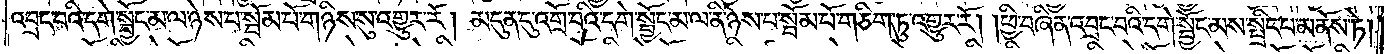འབྲང་བའི་དགེ་སྦྱོང་མ་ལ་ཉེས་པ་སྦོམ་པོ་གཉིས་སུ་འགྱུར་རོ། མདུན་དུ་འགྲོ་བའི་དགེ་སྦྱོང་མ་ལ་ནི་ཉེས་པ་སྦོམ་པོ་གཅིག་ཏུ་འགྱུར་རོ། །ཕྱི་བཞིན་འབྲང་བའི་དགེ་སྦྱོང་མས་སྤྲིང་པ་མནོས་ཏེ།
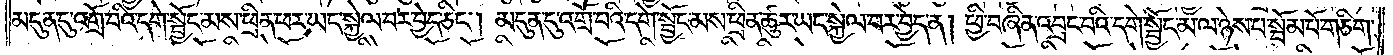མདུན་དུ་འགྲོ་བའི་དགེ་སྦྱོང་མས་ཕྲིན་ཕར་ཡང་སྐྱེལ་བར་བྱེད་ཅིང༌། མདུན་དུ་འགྲོ་བའི་དགེ་སྦྱོང་མས་ཕྲིན་ཚུར་ཡང་སྐྱེལ་བར་བྱེད་ན། ཕྱི་བཞིན་འབྲང་བའི་དགེ་སྦྱོང་མ་ལ་ཉེས་པ་སྦོམ་པོ་གཅིག་
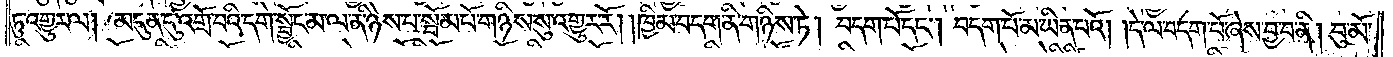ཏུ་འགྱུར་ལ། མདུན་དུ་འགྲོ་བའི་དགེ་སྦྱོང་མ་ལ་ནི་ཉེས་པ་སྦོམ་པོ་གཉིས་སུ་འགྱུར་རོ། །ཁྱིམ་བདག་ནི་གཉིས་ཏེ། བདག་པོ་དང༌། བདག་པོ་མ་ཡིན་པའོ། །དེ་ལ་བདག་པོ་ཞེས་བྱ་བ་ནི། བུ་མོ་
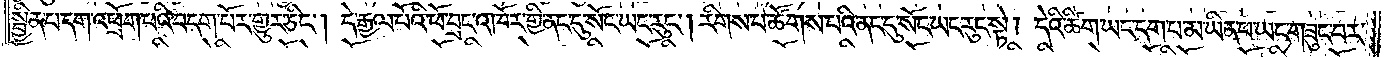སྦྱིན་པ་དག་འཕྲོག་པའི་བདག་པོར་གྱུར་ཅིང༌། དེ་རྒྱལ་པོའི་ཕོ་བྲང་འཁོར་གྱི་ནང་དུ་སོང་ཡང་རུང༌། རིགས་པ་ཚོགས་པའི་ནང་དུ་སོང་ཡང་རུང་སྟེ། དེའི་ཚིག་ཡང་དག་པ་མ་ཡིན་པ་ཡང་གཟུང་བར་
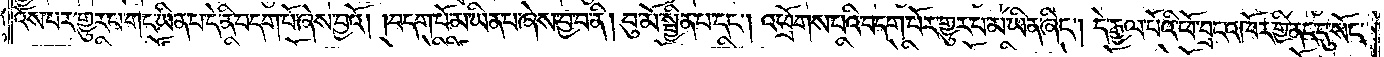འོས་པར་གྱུར་པ་གང་ཡིན་པ་དེ་ནི་བདག་པོ་ཞེས་བྱའོ། །བདག་པོ་མ་ཡིན་པ་ཞེས་བྱ་བ་ནི། བུ་མོ་སྦྱིན་པ་དང༌། འཕྲོགས་པའི་བདག་པོར་གྱུར་པ་མ་ཡིན་ཞིང༌། དེ་རྒྱལ་པོའི་ཕོ་བྲང་འཁོར་གྱི་ནང་དུ་སོང་
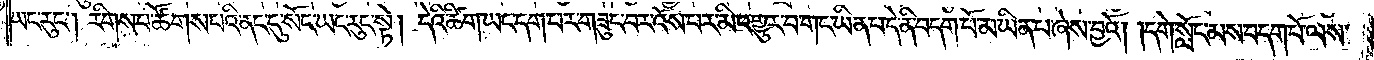ཡང་རུང༌། རིགས་པ་ཚོགས་པའི་ནང་དུ་སོང་ཡང་རུང་སྟེ། དེའི་ཚིག་ཡང་དག་པར་གཟུང་བར་འོས་པར་མི་འགྱུར་བ་གང་ཡིན་པ་དེ་ནི་བདག་པོ་མ་ཡིན་པ་ཞེས་བྱའོ། །དགེ་སློང་མས་བདག་པོ་ལས་
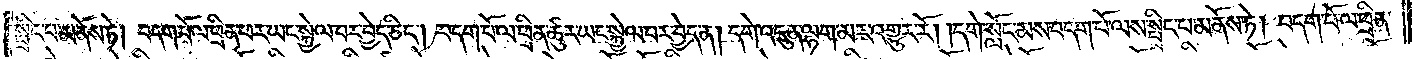སྤྲིང་པ་མནོས་ཏེ། བདག་པོ་ལ་ཕྲིན་ཕར་ཡང་སྐྱེལ་བར་བྱེད་ཅིང༌། བདག་པོ་ལ་ཕྲིན་ཚུར་ཡང་སྐྱེལ་བར་བྱེད་ན། དགེ་འདུན་ལྷག་མར་འགྱུར་རོ། །དགེ་སློང་མས་བདག་པོ་ལས་སྤྲིང་པ་མནོས་ཏེ། བདག་པོ་ལ་ཕྲིན་
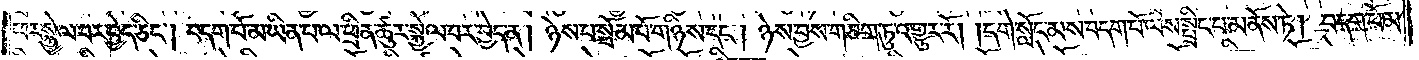ཕར་སྐྱེལ་བར་བྱེད་ཅིང༌། བདག་པོ་མ་ཡིན་པ་ལ་ཕྲིན་ཚུར་སྐྱེལ་བར་བྱེད་ན། ཉེས་པ་སྦོམ་པོ་གཉིས་དང༌། ཉེས་བྱས་གཅིག་ཏུ་འགྱུར་རོ། །དགེ་སློང་མས་བདག་པོ་ལས་སྤྲིང་པ་མནོས་ཏེ། བདག་པོ་མ་
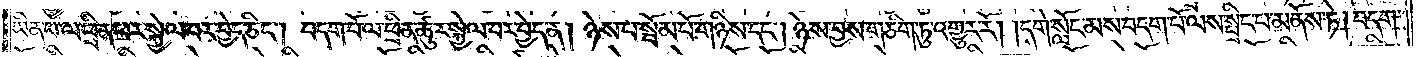ཡིན་པ་ལ་ཕྲིན་ཕར་སྐྱེལ་བར་བྱེད་ཅིང༌། བདག་པོ་ལ་ཕྲིན་ཚུར་སྐྱེལ་བར་བྱེད་ན། ཉེས་པ་སྦོམ་པོ་གཉིས་དང༌། ཉེས་བྱས་གཅིག་ཏུ་འགྱུར་རོ། །དགེ་སློང་མས་བདག་པོ་ལས་སྤྲིང་པ་མནོས་ཏེ། བདག་
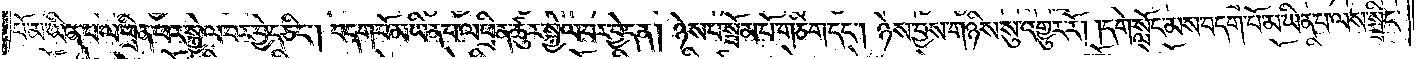པོ་མ་ཡིན་པ་ལ་ཕྲིན་ཕར་སྐྱེལ་བར་བྱེད་ཅིང༌། བདག་པོ་མ་ཡིན་པ་ལ་ཕྲིན་ཚུར་སྐྱེལ་བར་བྱེད་ན། ཉེས་པ་སྦོམ་པོ་གཅིག་དང༌། ཉེས་བྱས་གཉིས་སུ་འགྱུར་རོ། །དགེ་སློང་མས་བདག་པོ་མ་ཡིན་པ་ལས་སྤྲིང་
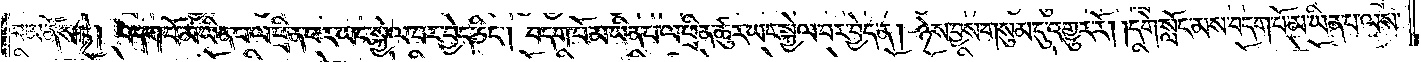པ་མནོས་ཏེ། བདག་པོ་མ་ཡིན་པ་ལ་ཕྲིན་ཕར་ཡང་སྐྱེལ་བར་བྱེད་ཅིང༌། བདག་པོ་མ་ཡིན་པ་ལ་ཕྲིན་ཚུར་ཡང་སྐྱེལ་བར་བྱེད་ན། ཉེས་བྱས་གསུམ་དུ་འགྱུར་རོ། །དགེ་སློང་མས་བདག་པོ་མ་ཡིན་པ་ལས་
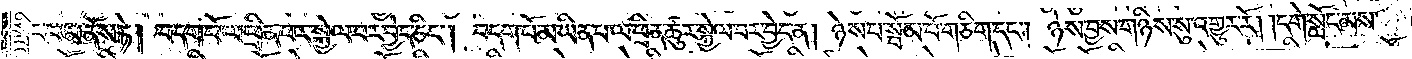སྤྲིང་པ་མནོས་ཏེ། བདག་པོ་ལ་ཕྲིན་ཕར་སྐྱེལ་བར་བྱེད་ཅིང༌། བདག་པོ་མ་ཡིན་པ་ལ་ཕྲིན་ཚུར་སྐྱེལ་བར་བྱེད་ན། ཉེས་པ་སྦོམ་པོ་གཅིག་དང༌། ཉེས་བྱས་གཉིས་སུ་འགྱུར་རོ། །དགེ་སློང་མས་
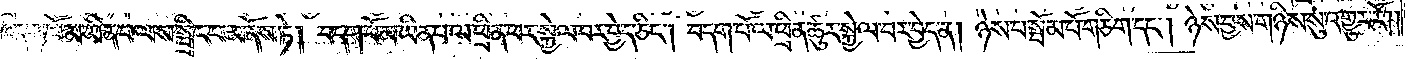བདག་པོ་མ་ཡིན་པ་ལས་སྤྲིང་པ་མནོས་ཏེ། བདག་པོ་མ་ཡིན་པ་ལ་ཕྲིན་ཕར་སྐྱེལ་བར་བྱེད་ཅིང༌། བདག་པོ་ལ་ཕྲིན་ཚུར་སྐྱེལ་བར་བྱེད་ན། ཉེས་པ་སྦོམ་པོ་གཅིག་དང༌། ཉེས་བྱས་གཉིས་སུ་འགྱུར་རོ༎
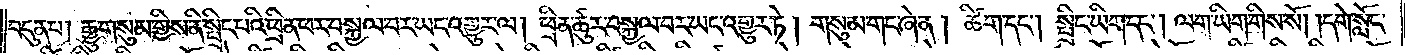བདུན་པ། རྒྱུ་གསུམ་གྱིས་ནི་སྤྲིང་པའི་ཕྲིན་ཕར་བསྐྱལ་བར་ཡང་འགྱུར་ལ། ཕྲིན་ཚུར་བསྐྱལ་བར་ཡང་འགྱུར་ཏེ། གསུམ་གང་ཞེ་ན། ཚིག་དང༌། སྤྲིང་ཡིག་དང༌། ལག་ཡིག་གིས་སོ། །དགེ་སློང་
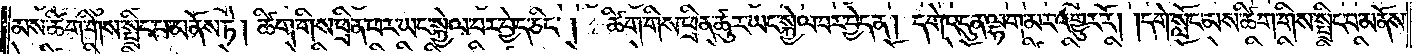མས་ཚིག་གིས་སྤྲིང་པ་མནོས་ཏེ། ཚིག་གིས་ཕྲིན་ཕར་ཡང་སྐྱེལ་བར་བྱེད་ཅིང༌། ཚིག་གིས་ཕྲིན་ཚུར་ཡང་སྐྱེལ་བར་བྱེད་ན། དགེ་འདུན་ལྷག་མར་འགྱུར་རོ། །དགེ་སློང་མས་ཚིག་གིས་སྤྲིང་པ་མནོས་
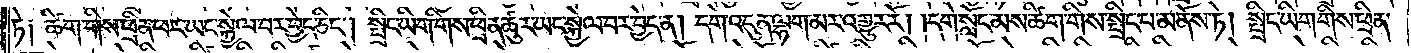ཏེ༑ ཚིག་གིས་ཕྲིན་ཕར་ཡང་སྐྱེལ་བར་བྱེད་ཅིང༌། སྤྲིང་ཡིག་གིས་ཕྲིན་ཚུར་ཡང་སྐྱེལ་བར་བྱེད་ན། དགེ་འདུན་ལྷག་མར་འགྱུར་རོ། །དགེ་སློང་མས་ཚིག་གིས་སྤྲིང་པ་མནོས་ཏེ། སྤྲིང་ཡིག་གིས་ཕྲིན་
